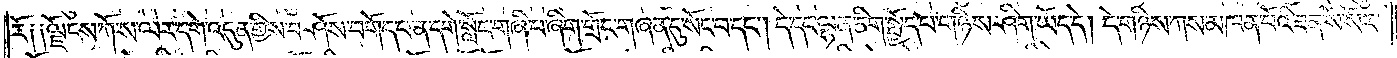རོ༑ ༑ལྗོངས་ཀོ་ས་ལར་དགེ་འདུན་གྱིས་བཤོས་བགོད་པ་ན་དགེ་སློང་གཞི་པ་ཞིག་གྲོང་གཞན་དུ་སོང་བ་དང༌། དེ་དང་ལྷན་ཅིག་སྤྱོད་པ་གཉིས་ཤིག་ཡོད་དེ། དེ་གཉིས་ཀས་མཁན་པོའི་ཟན་སོ་སོར་
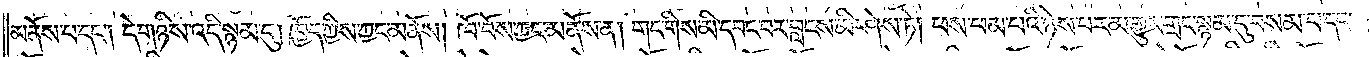མནོས་པ་དང༌། དེ་གཉིས་འདི་སྙམ་དུ། ཁྱོད་ཀྱིས་ཀྱང་མནོས། ཁོ་བོས་ཀྱང་མནོས་ན། གང་གིས་མི་དབང་བར་བླངས་མི་ཤེས་ཏེ། ཕས་ཕམ་པའི་ཉེས་པར་མ་གྱུར་གྲང་སྙམ་དུ་བསམ་པ་དང༌།
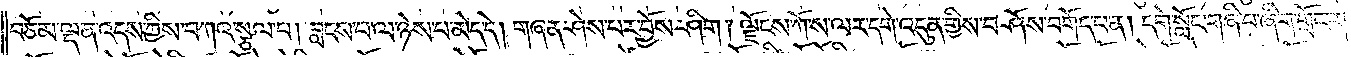བཅོམ་ལྡན་འདས་ཀྱིས་བཀའ་སྩལ་པ། བླངས་པ་ལ་ཉེས་པ་མེད་དེ། གཞན་ཤེས་པར་བྱོས་ཤིག །ལྗོངས་ཀོ་ས་ལར་དགེ་འདུན་གྱིས་བཤོས་བགོད་པ་ན། དགེ་སློང་གཞི་པ་ཞིག་གྲོང་ར་
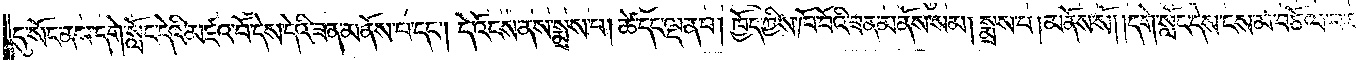དུ་སོང་ནས་དགེ་སློང་དེའི་མཛའ་བོ་དེས་དེའི་ཟན་མནོས་པ་དང༌། དེ་འོངས་ནས་སྨྲས་པ། ཚེ་དང་ལྡན་པ། ཁྱོད་ཀྱིས་ཁོ་བོའི་ཟན་མནོས་སམ། སྨྲས་པ། མནོས་སོ། །དགེ་སློང་དེས་ངས་མ་བཅོལ་བར་
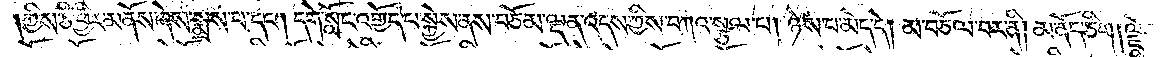ཀྱིས་ཅི་ཕྱིར་མནོས་ཞེས་སྨྲས་པ་དང༌། དགེ་སློང་འགྱོད་པ་སྐྱེས་ནས་བཅོམ་ལྡན་འདས་ཀྱིས་བཀའ་སྩལ་པ། ཉེས་པ་མེད་དེ། མ་བཅོལ་བར་ནི། མ་ནོད་ཅིག །ལྗོངས་
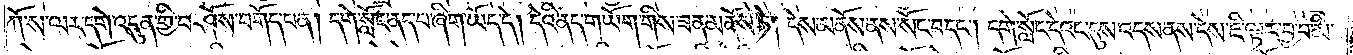ཀོ་ས་ལར་དགེ་འདུན་གྱི་བཤོས་བགོད་པ་ན། དགེ་སློང་ནད་པ་ཞིག་ཡོད་དེ། དེའི་ནད་གཡོག་གིས་ཟན་མནོས་ཏེ། དེས་མནོས་ནས་སོང་བ་དང༌། དགེ་སློང་དེའང་དུས་འདས་ནས་དེས་ཇི་ལྟར་བྱ་བ་མི་
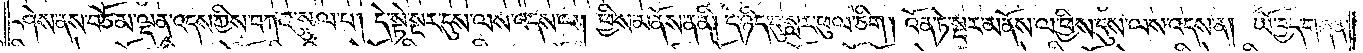ཤེས་ནས་བཅོམ་ལྡན་འདས་ཀྱིས་བཀའ་སྩལ་པ། དེ་སྟེ་སྔར་དུས་ལས་འདས་ལ། ཕྱིས་མནོས་ན་ནི། དེ་ཉིད་དུ་སླར་ཕུལ་ཅིག །འོན་ཏེ་སྔར་མནོས་ལ་ཕྱིས་དུས་ལས་འདས་ན། ཡོ་བྱད་གཞན་
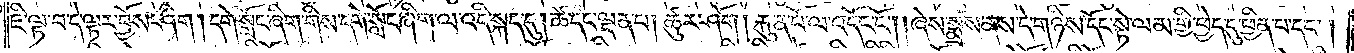ཇི་ལྟ་བ་དེ་ལྟར་བྱོས་ཤིག །དགེ་སློང་ཞིག་གིས་དགེ་སློང་ཞིག་ལ་འདི་སྐད་དུ། ཚེ་དང་ལྡན་པ། ཚུར་ཤོག །རྐུན་པོ་ལ་འདོང་ངོ༌། །ཞེས་སྨྲས་ནས་དེ་གཉིས་དོང་སྟེ་ལམ་གྱི་ཕྱེད་དུ་ཕྱིན་པ་དང༌།
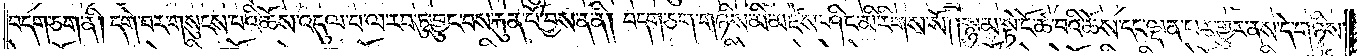བདག་ཅག་ནི། དགེ་བར་གསུངས་པའི་ཆོས་འདུལ་བ་ལ་རབ་ཏུ་བྱུང་བས་རྐུན་པོ་བྱས་ན་ནི། བདག་ཅག་གཉིས་མི་མཛེས་ཤིང་མི་རིགས་སོ། །སྙམ་སྟེ་ངོ་ཚ་བའི་ཆོས་དང་ལྡན་པར་གྱུར་ནས་དེ་གཉིས་
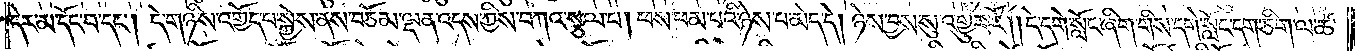དེར་མ་དོང་བ་དང༌། དེ་གཉིས་འགྱོད་པ་སྐྱེས་ནས་བཅོམ་ལྡན་འདས་ཀྱིས་བཀའ་སྩལ་པ། ཕས་ཕམ་པའི་ཉེས་པ་མེད་དེ། ཉེས་བྱས་སུ་འགྱུར་རོ། །དེ་དགེ་སློང་ཞིག་གིས་དགེ་སློང་དག་ཅིག་ལ་ཚེ་
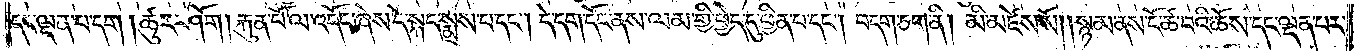དང་ལྡན་པ་དག །ཚུར་ཤོག །རྐུན་པོ་ལ་འདོང་ཞེས་དེ་སྐད་སྨྲས་པ་དང༌། དེ་དག་དོང་ནས་ལམ་གྱི་ཕྱེད་དུ་ཕྱིན་པ་དང༌། བདག་ཅག་ནི། མི་མཛེས་སོ། །སྙམ་ནས་ངོ་ཚ་བའི་ཆོས་དང་ལྡན་པར་
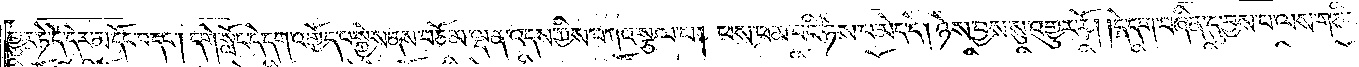གྱུར་ཏེ་དེ་དེར་མ་དོང་བ་དང༌། དགེ་སློང་དེ་དག་འགྱོད་པ་སྐྱེས་ནས་བཅོམ་ལྡན་འདས་ཀྱིས་བཀའ་སྩལ་པ། ཕས་ཕམ་པའི་ཉེས་པ་མེད་དེ། ཉེས་བྱས་སུ་འགྱུར་རོ། །དེ་དག་བཞིན་དུ་བྱས་པ་ལས་གཅིག་
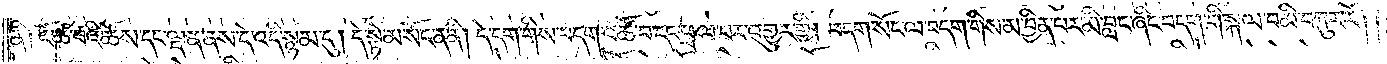ནི། ངོ་ཚ་བའི་ཆོས་དང་ལྡན་ནས་དེ་འདི་སྙམ་དུ། དེ་སྟེ་མ་སོང་ན་ནི། དེ་དག་གིས་བདག་འཚོ་བ་དང་ཕྲལ་བར་འགྱུར་གྱི། བདག་སོང་ལ་བདག་གིས་མ་བྱིན་པར་མི་བླང་ཞིང་བདག་གི་སྐལ་བ་མི་བཀུར་རོ། །
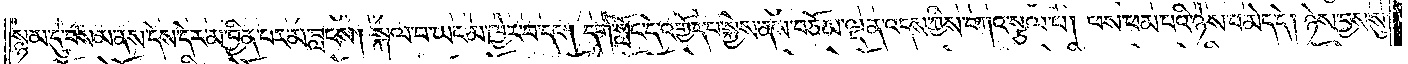སྙམ་དུ་བསམ་ནས་དེས་དེར་མ་བྱིན་པར་མ་བླངས། སྐལ་པ་ཡང་མ་ཁྱེར་བ་དང༌། དགེ་སློང་དེ་འགྱོད་པ་སྐྱེས་ནས་བཅོམ་ལྡན་འདས་ཀྱིས་བཀའ་སྩལ་པ། ཕས་ཕམ་བཞི་ཉེས་པ་མེད་དེ། ཉེས་བྱས་སུ་
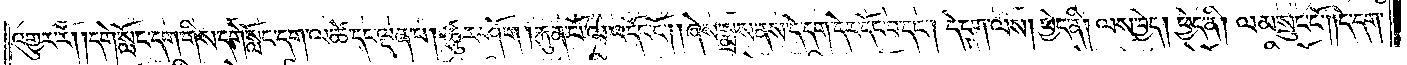འགྱུར་རོ། །དགེ་སློང་དག་གིས་དགེ་སློང་དག་ལ་ཚེ་དང་ལྡན་པ། ཚུར་ཤོག །རྐུན་པོ་ལ་འདོང་ངོ༌། །ཞེས་སྨྲས་ནས་དེ་དག་དེར་དོང་བ་དང༌། དེ་དག་ལས། ཕྱེད་ནི། ལས་བྱེད། ཕྱེད་ནི། ལམ་སྲུང་ངོ༌། །དེ་དག་
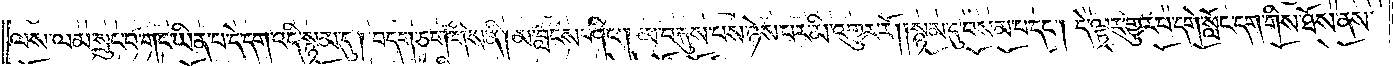ལས་ལམ་སྲུང་བ་གང་ཡིན་པ་དེ་དག་འདི་སྙམ་དུ། བདག་ཅག་གིས་ནི། མ་བླངས་ཤིང༌། མ་བརྐུས་པས་ཉེས་པར་མི་འགྱུར་རོ། །སྙམ་དུ་བསམ་པ་དང༌། དེ་ལྟར་གྱུར་པ་དགེ་སློང་དག་གིས་ཐོས་ནས་
